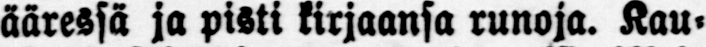ääressä ja pisti kirjaansa runoja. Kau-
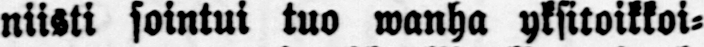niisti sointui tuo wanha yksitoikkoi-
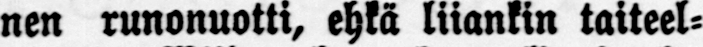nen runonuotti, ehkä liiankin taiteel-
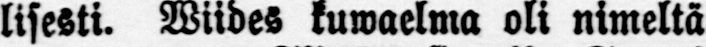lisesti. Wiides kuwaelma oli nimeltä
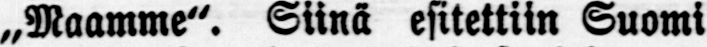»Maamme". Siinä esitettiin Suomi
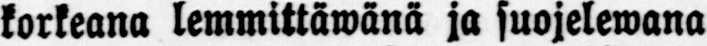korkeana lemmittäwänä ja suojelewana
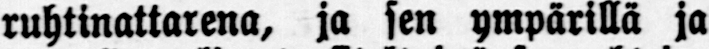ruhtinattarena, ja sen ympärillä ja
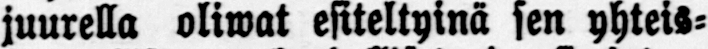juurella oliwat esiteltyinä sen yhteis-
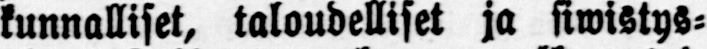kunnalliset, taloudelliset ja siwistys-
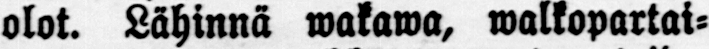olot. Lähinnä wakawa, walkopartai-
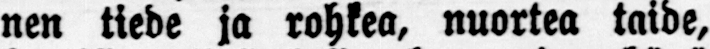nen tiede ja rohkea, nuortea taide,
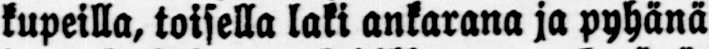kupeilla, toisella laki ankarana ja pyhänä
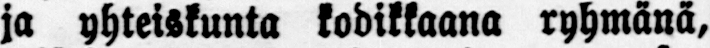ja yhteiskunta kodikkaana ryhmänä,
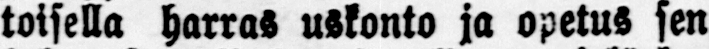toisella harras uskonto ja opetus sen
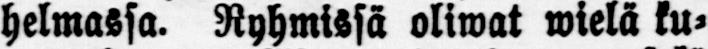helmassa. Ryhmissä oliwat wielä ku-
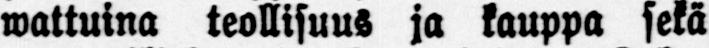wattuina teollisuus ja kauppa sekä
